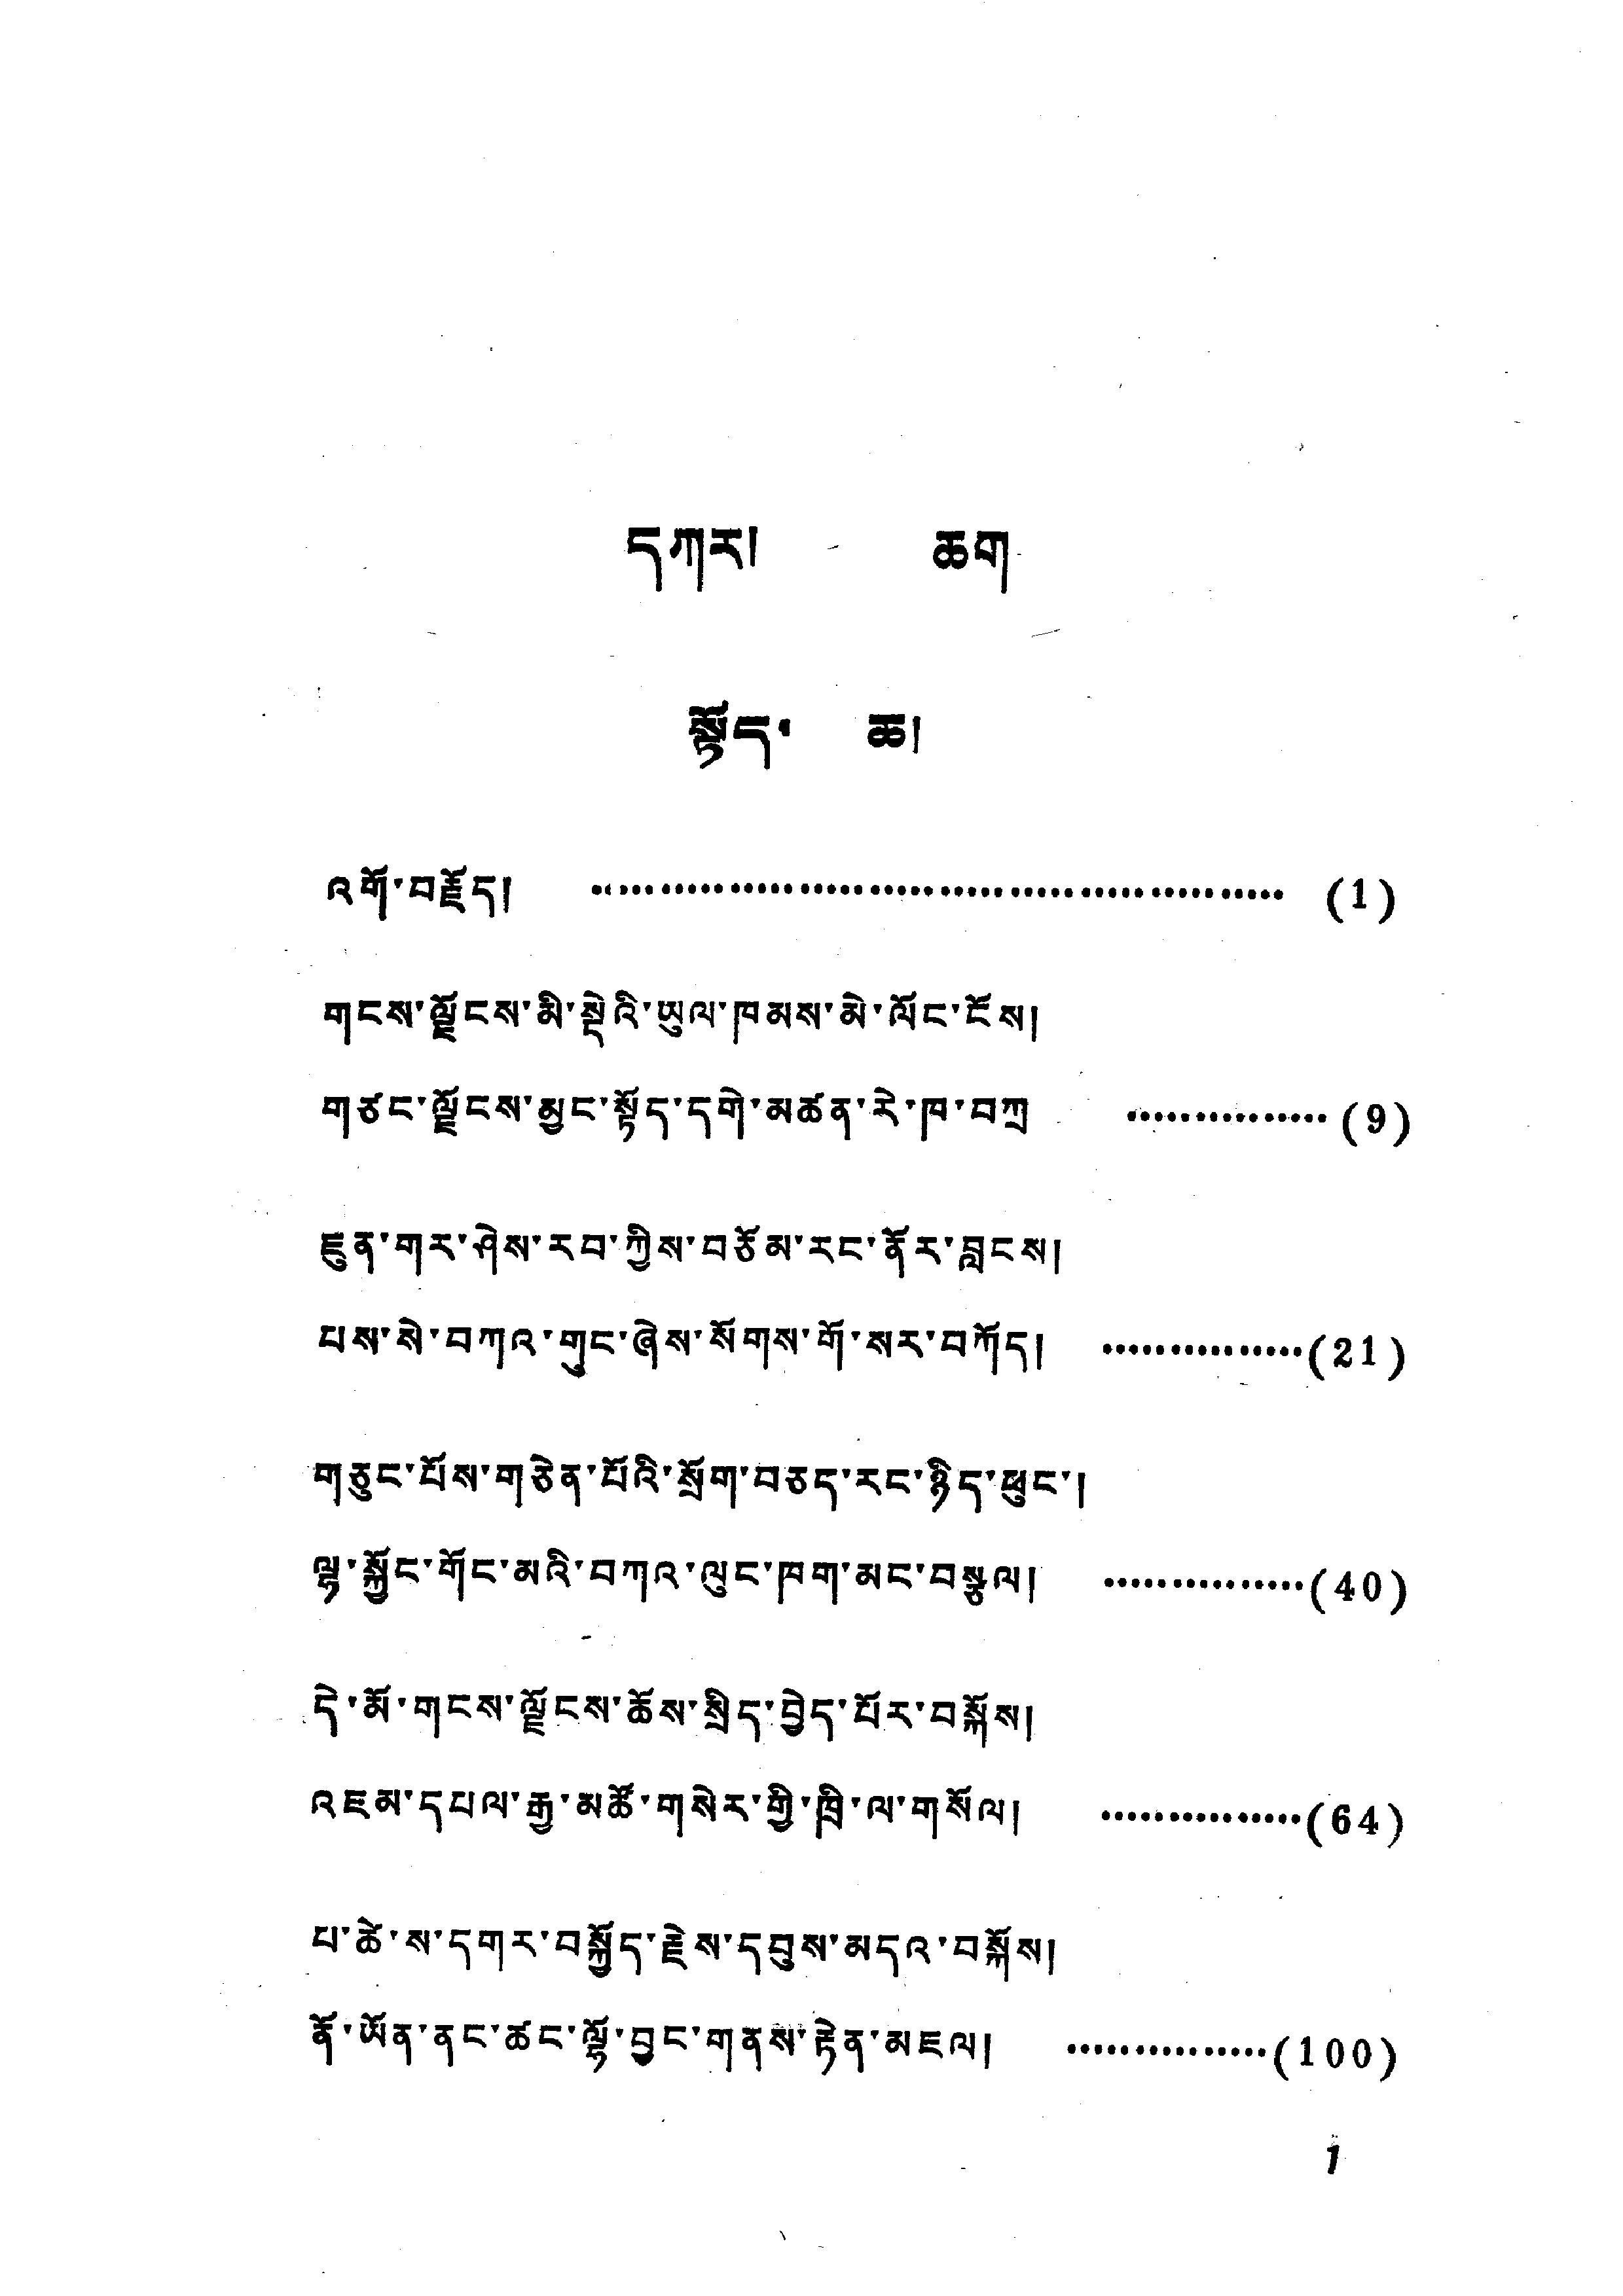དཀར་ ཆག
སྟོད་ ཆ།
འགོ་བརྗོད། .................................................. (1)
གངས་ལྗོངས་མི་སྡེའི་ཡུལ་ཁམས་མེ་ལོང་ངོས།
གཙང་ལྗོངས་མྱང་སྟོད་དགེ་མཚན་རེ་ཁ་བཀྲ ............... (9)
ཇུན་གར་ཤེས་རབ་ཀྱིས་བཅོམ་རང་ནོར་བླངས།
པས་སེ་བཀའ་གུང་ཞས་སོགས་གོ་སར་བཀོད། ...............(21)
གཅུང་པོས་གཅེན་པོའི་སྲོག་བཅད་རང་ཉིད་ཕུང་།
ལྷ་སྐྱོང་གོང་མའི་བཀའ་ལུང་ཁག་མང་བསྩལ། ...............(40)
དེ་མོ་གངས་ལྗོངས་ཆོས་སྲིད་བྱེད་པོར་བསྐོས།
འཇམ་དཔལ་རྒྱ་མཚོ་གསེར་གྱི་ཁྲི་ལ་གསོལ། ...............(64)
པ་ཚེ་དགར་བསྐྱོད་རྗེས་དབུས་མདའ་བསྐོས།
ནོ་ཡོན་ནང་ཚང་ལྷོ་བྱང་གནས་རྟེན་མཇལ། ...............(100)
1
